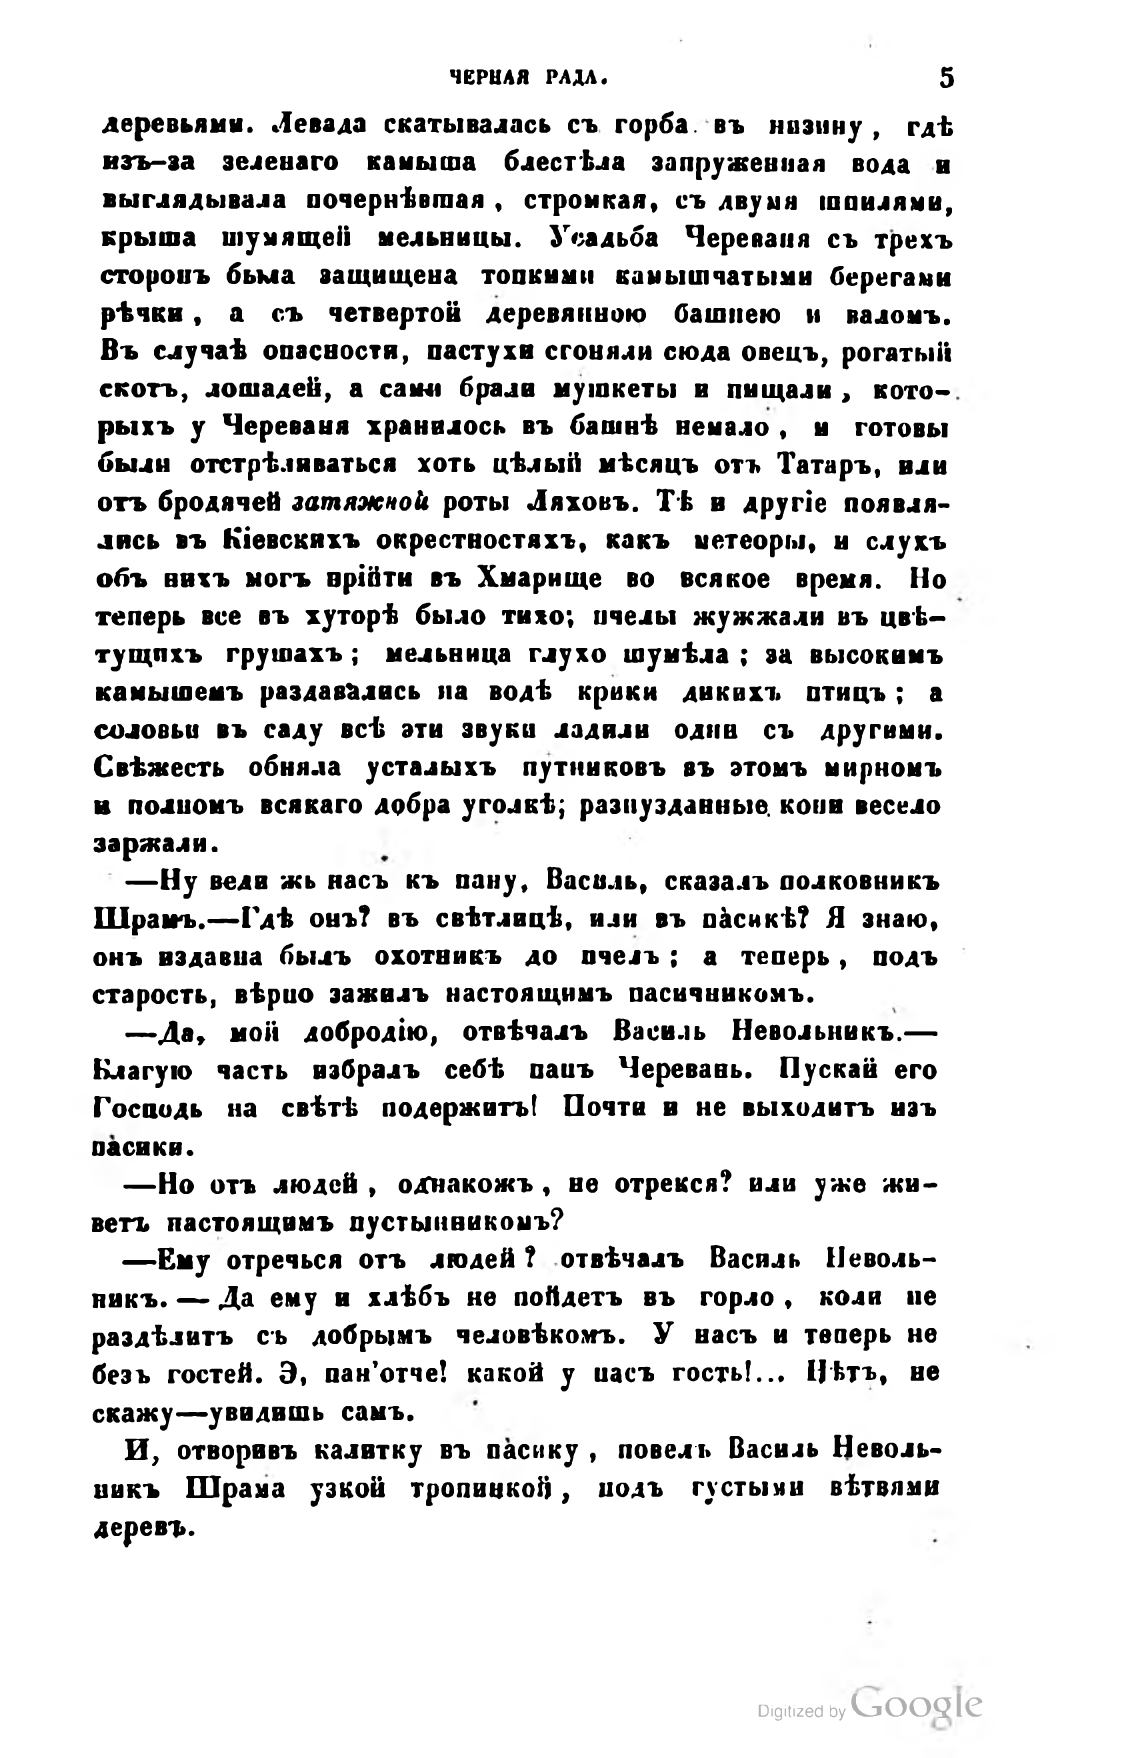ЧЕРНАЯ РАДА.                           5
деревьями. Левада скатывалась съ горба, въ низину, гдѣ изъ-за зеленаго камыша блестѣла запруженная вода и выглядывала почернѣвшая, стромкая, съ двумя шпилями, крыша шумящей мельницы. Усадьба Череваня съ трехъ сторонъ была защищена топкими камышчатыми берегами рѣчки, а съ четвертой деревянною башнею и валомъ. Въ случаѣ опасности, пастухи сгоняли сюда овецъ, рогатый скотъ, лошадей, а сами брали мушкеты и пищали, которыхъ у Череваня хранилось въ башнѣ немало, и готовы были отстрѣливаться хоть цѣлый мѣсяцъ отъ Татаръ, или отъ бродячей затяжной роты Ляховъ. Тѣ и другіе появлялись въ Кіевскихъ окрестностяхъ, какъ метеоры, и слухъ объ нихъ могъ прійти въ Хмарище во всякое время. Но теперь все въ хуторѣ было тихо; пчелы жужжали въ цвѣтущихъ грушахъ; мельница глухо шумѣла; за высокимъ камышемъ раздавались на водѣ крики дикихъ птицъ; а соловьи въ саду всѣ эти звуки ладили одни съ другими. Свѣжесть обняла усталыхъ путниковъ въ этомъ мирномъ и полномъ всякаго добра уголкѣ; разнузданные, кони весело заржали.
— Ну веди жь насъ къ пану, Василь, сказалъ полковникъ Шрамъ. — Гдѣ онъ? въ свѣтлицѣ, или въ пасикѣ? Я знаю, онъ издавна былъ охотникъ до пчелъ; а теперь, подъ старость, вѣрно зажилъ настоящимъ пасичникомъ.
— Да, мой добродію, отвѣчалъ Василь Невольникъ. — Благую часть избралъ себѣ панъ Черевань. Пускай его Господь на свѣтѣ подержитъ! Почти и не выходитъ изъ пасики.
— Но отъ людей, однакожъ, не отрекся? или уже живетъ настоящимъ пустынникомъ?
— Ему отречься отъ людей? отвѣчалъ Василь Невольникъ. — Да ему и хлѣбъ не пойдетъ въ горло, коли не раздѣлитъ съ добрымъ человѣкомъ. У насъ и теперь не безъ гостей. Э, пан’отче! какой у насъ гость!... Нѣтъ, не скажу — увидишь самъ.
И, отворивъ калитку въ пасику, повелъ Василь Невольникъ Шрама узкой тропинкой, подъ густыми вѣтвями деревъ.
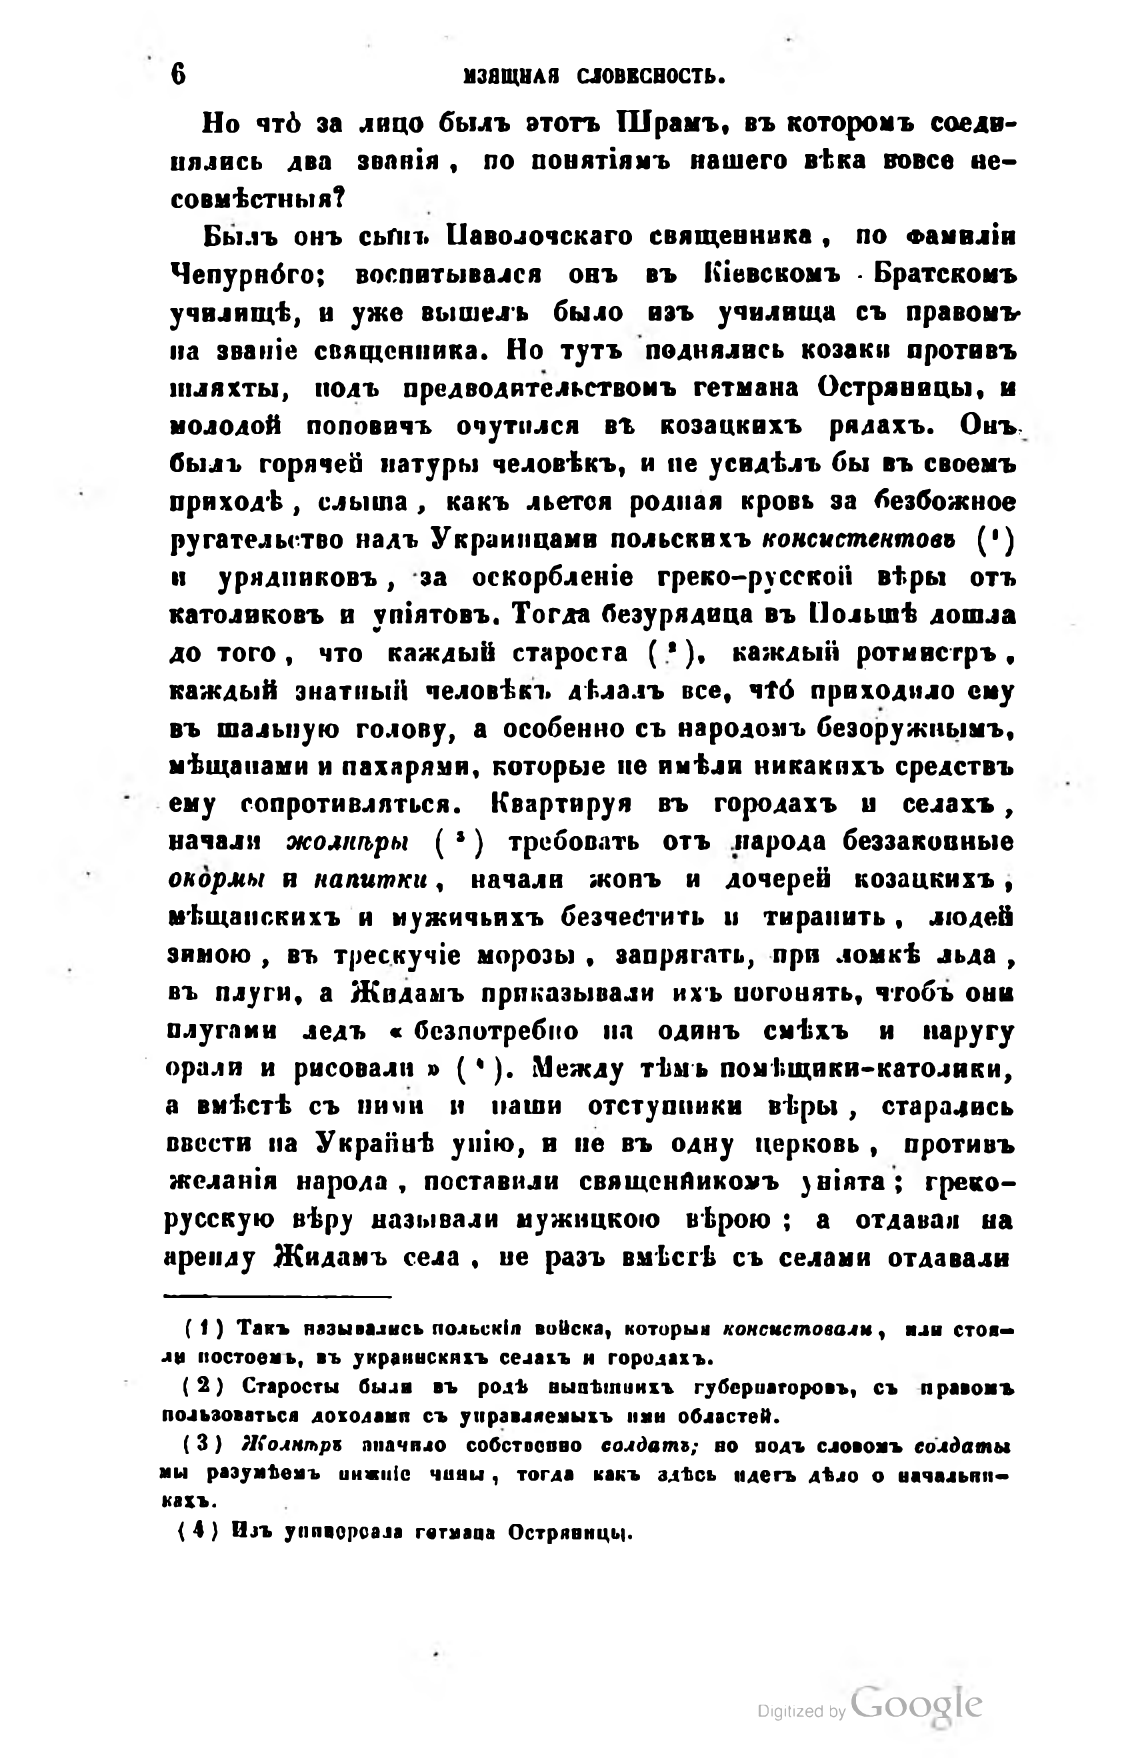6                          ИЗЯЩНАЯ СЛОВЕСНОСТЬ.
Но что за лицо былъ этотъ Шрамъ, въ которомъ соединялись два званія, по понятіямъ нашего вѣка вовсе несовмѣстныя?
Былъ онъ сынъ Паволочскаго священника, по фамиліи Чепурного; воспитывался онъ въ Кіевскомъ Братскомъ училищѣ, и уже вышелъ было изъ училища съ правомъ на званіе священника. Но тутъ поднялись козаки противъ шляхты, подъ предводительствомъ гетмана Остряницы, и молодой поповичъ очутился въ козацкихъ рядахъ. Онъ былъ горячей натуры человѣкъ, и не усидѣлъ бы въ своемъ приходѣ, слыша, какъ льется родная кровь за безбожное ругательство надъ Украинцами польскихъ консистентовъ ( 1 ) и урядниковъ, за оскорбленіе греко-русской вѣры отъ католиковъ и уніятовъ. Тогда безурядица въ Польшѣ дошла до того, что каждый староста ( 2 ), каждый ротмистръ, каждый знатный человѣкъ дѣлалъ все, что приходило ему въ шальную голову, а особенно съ народомъ безоружнымъ, мѣщанами и пахарями, которые не имѣли никакихъ средствъ ему сопротивляться. Квартируя въ городахъ и селахъ, начали жолнѣры ( 3 ) требовать отъ народа беззаконные окормы и напитки, начали жонъ и дочерей козацкихъ, мѣщанскихъ и мужичьихъ безчестить и тиранить, людей зимою, въ трескучіе морозы, запрягать, при ломкѣ льда, въ плуги, а Жидамъ приказывали ихъ погонять, чтобъ они плугами ледъ «безпотребно на одинъ смѣхъ и наругу орали и рисовали» ( 4 ). Между тѣмъ помѣщики-католики, а вмѣстѣ съ ними и наши отступники вѣры, старались ввести на Украйнѣ унію, и не въ одну церковь, противъ желанія народа, поставили священникомъ уніята; грекорусскую вѣру называли мужицкою вѣрою; а отдавая на аренду Жидамъ села, не разъ вмѣстѣ съ селами отдавали
—
( 1 ) Такъ назывались польскія войска, которыя консистовали, или стоили постоемъ, въ украинскихъ селахъ и городахъ.
( 2 ) Старосты были въ родѣ нынѣшнихъ губернаторовъ, съ правомъ пользоваться доходами съ управляемыхъ ими областей.
( 3 ) Жолнѣръ значило собственно солдатъ; но подъ словомъ солдаты мы разумѣемъ нижніе чины, тогда какъ здѣсь идетъ дѣло о начальникахъ.
( 4 ) Изъ универсала гетмана Остряницы.
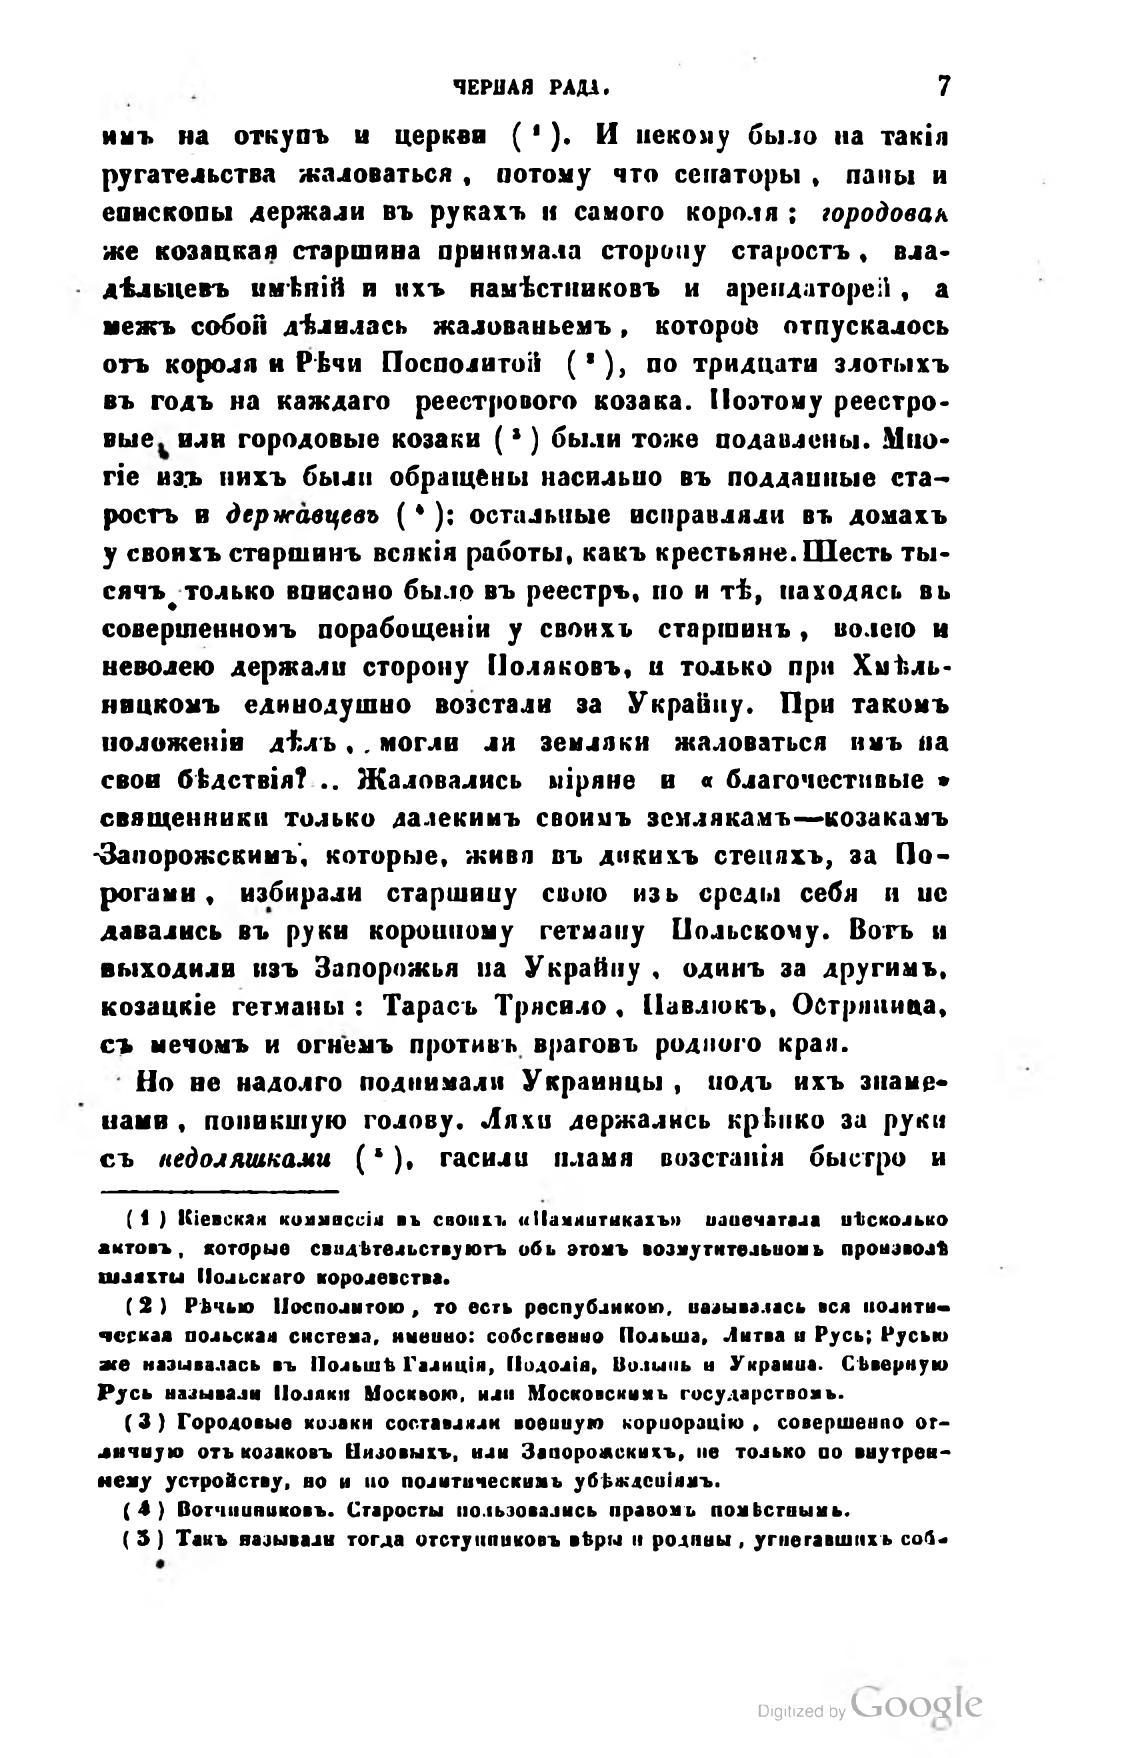ЧЕРНАЯ РАДА.                                7
инъ на откупъ и церкви ( 1 ). И некому было на такія ругательства жаловаться, потому что сенаторы, паны и епископы держали въ рукахъ и самого короля; городовая же козацкая старшина принимала сторону старостъ, владѣльцевъ имѣній и ихъ намѣстниковъ и арендаторей, а межъ собой дѣлилась жалованьемъ, которое отпускалось отъ короля и Рѣчи Посполитой ( 2 ), по тридцати злотыхъ въ годъ на каждаго реестрового козака. Поэтому реестровые или городовые козаки ( 3 ) были тоже подавлены. Многіе изъ нихъ были обращены насильно въ подданные старостъ и державцевъ ( 4 ); остальные исправляли въ домахъ у своихъ старшинъ всякія работы, какъ крестьяне. Шесть тысячъ только вписано было въ реестръ, но и тѣ, находясь въ совершенномъ порабощеніи у своихъ старшинъ, волею и неволею держали сторону Поляковъ, и только при Хмѣльницкомъ единодушно возстали за Украйну. При такомъ положеніи дѣлъ, могли ли земляки жаловаться имъ на свои бѣдствія?.. Жаловались міряне и «благочестивые» священники только далекимъ своимъ землякамъ — козакамъ Запорожскимъ, которые, живя въ дикихъ степяхъ, за Порогами, избирали старшину свою изъ среды себя и не давались въ руки коронному гетману Польскому. Вотъ и выходили изъ Запорожья на Украйну, одинъ за другимъ, козацкіе гетманы: Тарасъ Трясило, Павлюкъ, Остряница, съ мечомъ и огнемъ противъ враговъ родного края.
Но не надолго поднимали Украинцы, подъ ихъ знаменами, поникшую голову. Ляхи держались крѣпко за руки съ недоляшками ( 5 ), гасили пламя возстанія быстро и
—
( 1 ) Кіевская коммиссія въ своихъ «Памянтикахъ» напечатала нѣсколько актовъ, которые свидѣтельствуютъ объ этомъ возмутнтельномь произволѣ шляхты Польскаго королевства.
( 2 ) Рѣчью Посполитою, то есть республикою, называлась вся политическая польская система, именно: собственно Польша. Литва и Русь; Русью же называлась въ Польшѣ Галиція, Подолія, Волынь и Украииа. Сѣверную Русь называли Поляки Москвою, или Московскимъ государствомъ.
( 3 ) Городовые козаки составляли военную корпорацію, совершенно отличную отъ козаковъ Низовыхъ, или Запорожскихъ, не только по внутреннему устройству, но и по политическимъ убѣжденіямъ.
( 4 ) Вотчинниковъ. Старосты пользовались правомъ помѣстнымь.
( 5 ) Такъ называли тогда отступниковъ вѣры и родины, угнетавшихъ соб-
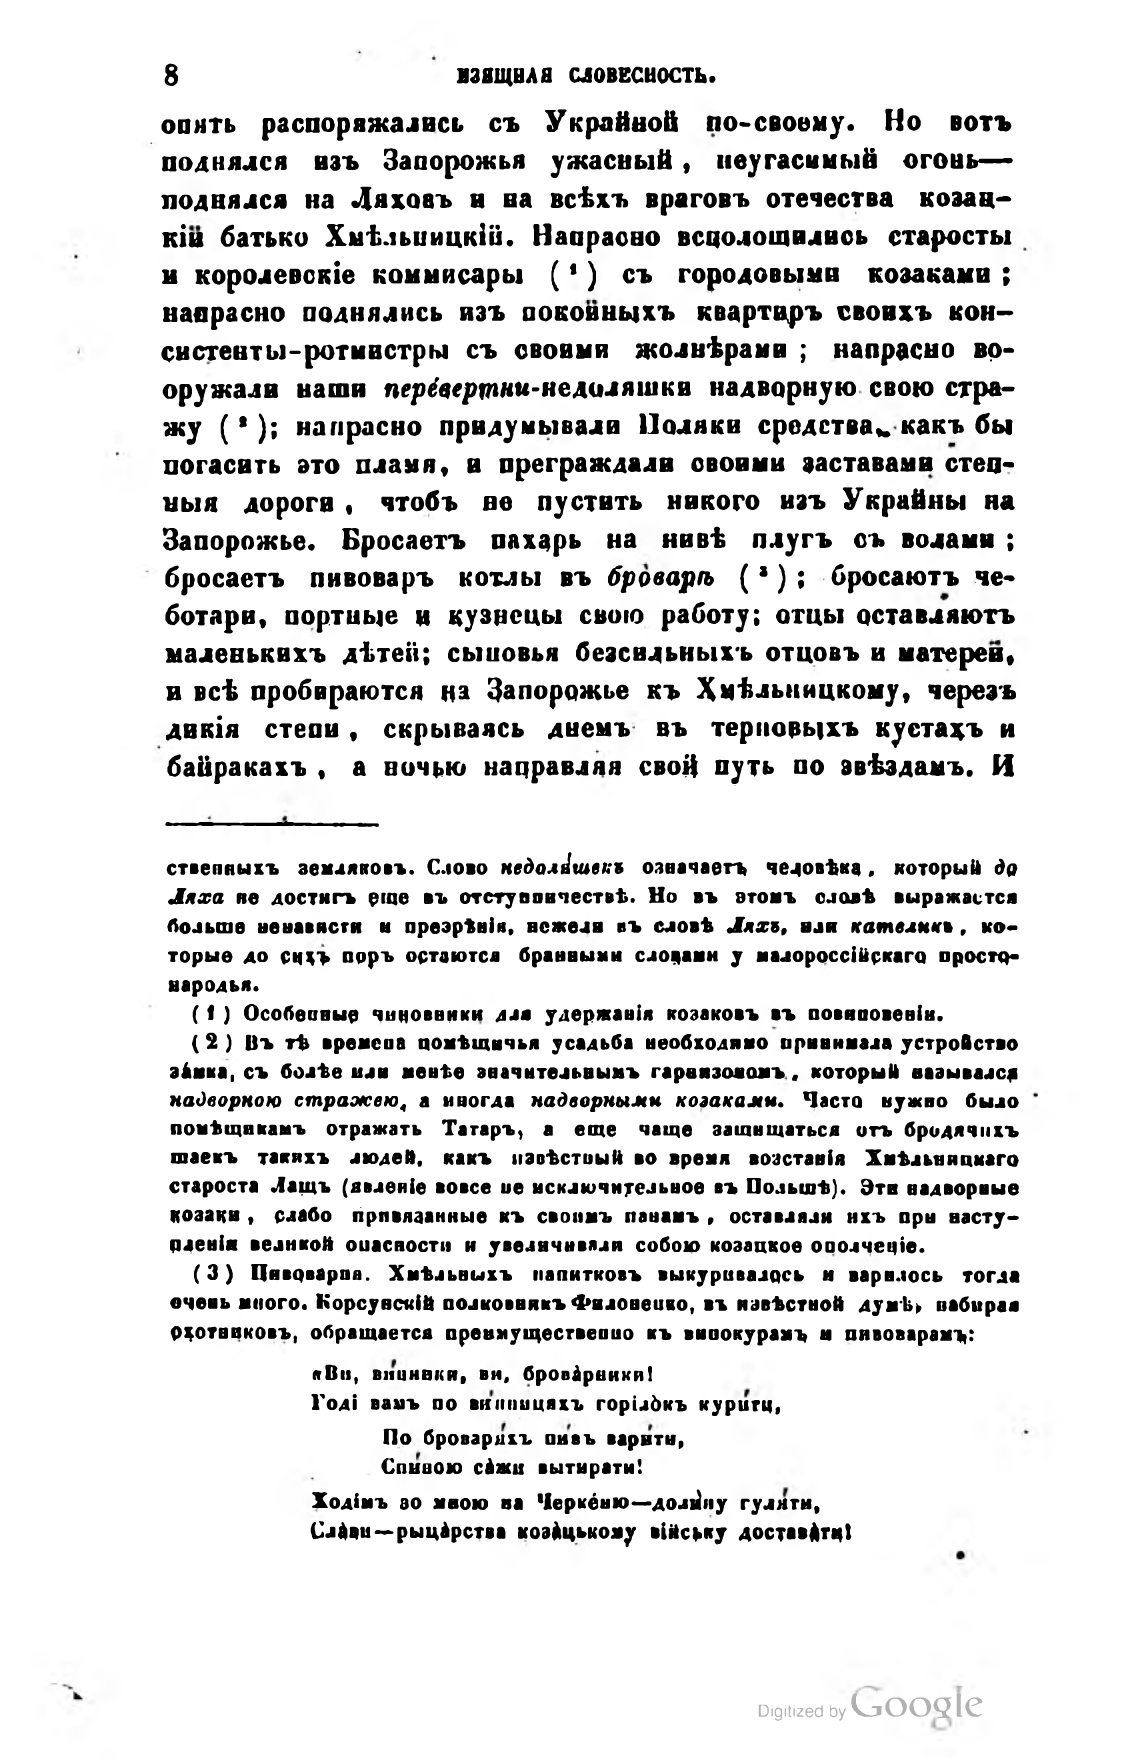8                              ИЗЯЩНАЯ СЛОВЕСНОСТЬ.
опять распоряжались съ Украйной по-своему. Но вотъ поднялся изъ Запорожья ужасный, неугасимый огонь — поднялся на Ляховъ и на всѣхъ враговъ отечества козацкій батько Хмѣльницкій. Напрасно всполошились старосты и королевскіе коммисары ( 1 ) съ городовыми козаками; напрасно поднялись изъ покойныхъ квартиръ своихъ консистенты-ротмистры съ своими жолнѣрами; напрасно вооружали наши перевертни-недоляшки надворную свою стражу ( 2 ); напрасно придумывали Поляки средства, какъ бы погасить это пламя, и преграждали своими заставами степныя дороги, чтобъ не пустить никого изъ Украйны на Запорожье. Бросаетъ пахарь на нивѣ плугъ съ волами; бросаетъ пивоваръ котлы въ броварѣ ( 3 ); бросаютъ чеботари, портные и кузнецы свою работу; отцы оставляютъ маленькихъ дѣтей; сыновья безсильныхъ отцовъ и матерей, и всѣ пробираются на Запорожье къ Хмѣльницкому, черезъ дикія степи, скрываясь днемъ въ терновыхъ кустахъ и байракахъ, а ночью направляя свой путь по звѣздамъ. И
—
ственныхъ земляковъ. Слово недоляшек означаетъ человѣка, который до Ляха не достигъ еще въ отступничествѣ. Но въ этомъ словѣ выражается больше ненависти и презрѣнія, нежели въ словѣ Ляхъ, или кателикъ, которые до сихъ поръ остаются бранными словами у малороссійскаго простонародья.
( 1 ) Особенные чиновники для удержанія козаковъ въ повиновеніи.
( 2 ) Въ тѣ времена помѣщичья усадьба необходимо принимала устройство замка, съ болѣе или менѣе значительнымъ гарнизономъ, который назывался надворною стражею, а иногда надворными козаками. Часто нужно было помѣщикамъ отражать Татаръ, а еще чаще защищаться отъ бродячихъ шаекъ такихъ людей, какъ извѣстный во время возстанія Хмѣльницкаго староста Лащъ (явленіе вовсе не исключительное въ Польшѣ). Эти надворные козаки, слабо привязанные къ своимъ панамъ, оставляли ихъ при наступленіи великой опасности и увеличивали собою козацкое ополченіе.
( 3 ) Пивоварня. Хмѣльныхъ напитковъ выкуривалось и варилось тогда очень много, Корсунскій полковникъ Филоненко, въ извѣстной думѣ, набирая охотниковъ, обращается преимущественно къ винокурамъ и пивоварамъ:
«Ви, винники, ви, броварики!
Годі вамъ по винницяхъ горілокъ курити,
По броваряхъ пивъ варити,
Спиною сажи вытирати!
Ходімъ зо мною на Черкеню — долину гуляти,
Слави — рыцарства козацькому війску доставати!